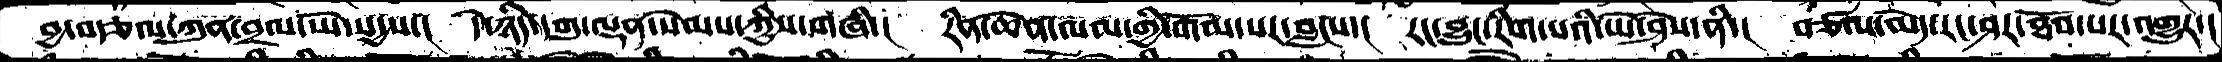བྱ་བརྩལ་ཀུན་བྲལ་ཡེ་སདྱས་།  དེ་ཉིད་དགུ་ལྡན་སེམས་ཀྱིས་གཞི་།  རིན་ཆེན་ལམ་གྱི་གོམ་པར་བླངས་།  རང་བྱུང་རིག་པའི་ཡེ་ཤེས་ནི་།  བཙལ་མེད་རང་ཤར་ཐོབ་པར་འགྱུར་།
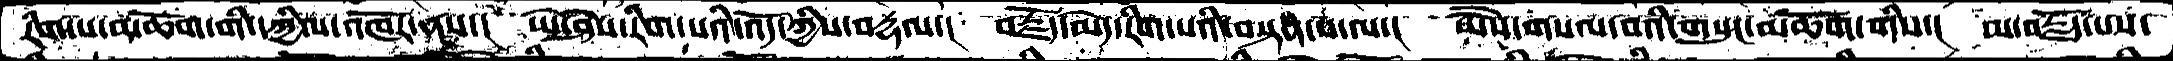རིག་པ་མཆོག་གི་དཀྱིལ་འཁོར་ནས་།  ཡེ་ཤེས་རིག་པའི་འོད་ཀྱིས་བརྡལ་།  བརྗོད་མེད་རིག་པའི་བསྟན་པ་ལ་།  ཡཻས་གསལ་བའི་གསུང་མཆོག་གིས་།  མ་བརྗོད་པས་
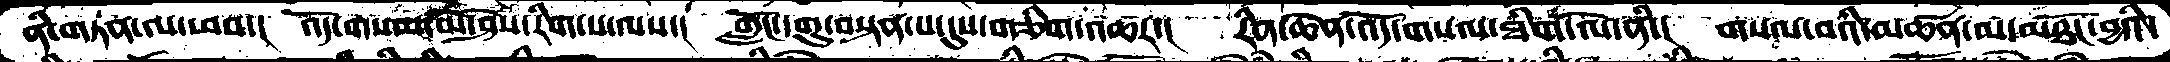ནི་གཏན་ལ་ཕབ་།  འོད་གསལ་ཡེ་ཤེས་རིག་པ་ལས་།  གློང་དགུ་བསྟན་པ་དུས་གཅིག་འཆར་།  རིན་ཆེན་འོད་གསལ་ཐིག་ལེ་ནི་།  གསལ་བའི་མཚན་མ་མཐོང་བྱའི་
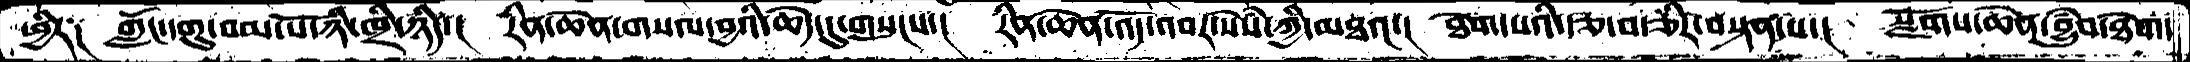ཕྱིར༑  གློང་དགུ་བམ་པོ་ཉི་ཁྲི་ཉིད་།  རིན་ཆེན་གསལ་བྱའི་ཆེད་དུ་གསུངས་།  རིན་ཆེན་འོད་འབར་སེཾས་ཀྱི་མཐའ་།  ཐེག་པའི་རྩ་བ་ཅིར་བསྟན་པ་།  སྫོགས་ཆེན་བྱུཾབ་ཐེག་
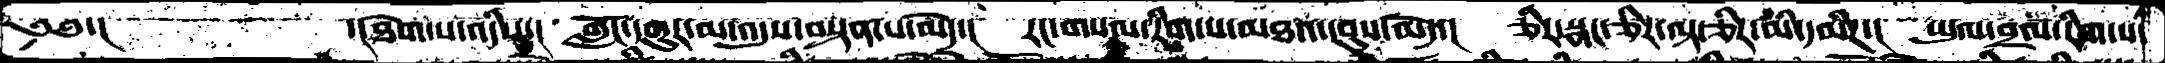༄༅་།          ་།ཐེག་པ་འདིར་།   གློང་དགུར་མ་འདུས་བསྟན་པ་མེད་།  རང་གསལ་རིག་པ་མཐའ་དབུས་མེད་།  ཅིར་སྣང་ཅིར་ལྟ་ཅིར་མི་དམིཌ་།  ཡུལ་བྲལ་རིག་པ་
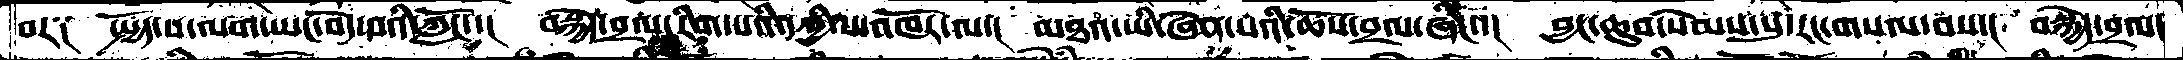བར༑   སྤྱོད་པ་ལག་ཡང་བདེ་བའི་ཀློང་་།   བསྐྱེད་བྲལ་རིག་པའི་དཀྱིལ་འཁོར་ལ་།  མཐའ་ཡི་ཞེན་པའི་ཆོས་བྲལ་ཞིང་་།  བྱང་ཆུབ་སེམས་སུ་རང་གསལ་བས་།  བསྐྱེད་བྲལ་
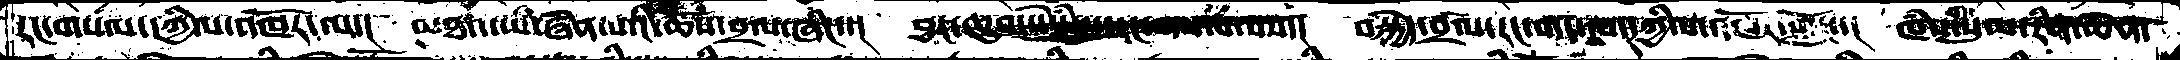རང་གསལ་དཀྱིལ་འཁོར་ལ་།  མཐའ་ཡི་ཞེན་པའི་ཆོས་བྲལ་ཞིང་་།  བྱང་ཆུབ་སེཾས་སུ་སྣང་གསལ་པས་།   བསྐྱེད་བྲལ་རང་གང་དབང་དཀྱིལ་འཁོར་གློང་་།  ཁཾས་གསུམ་རིན་ཆེན་
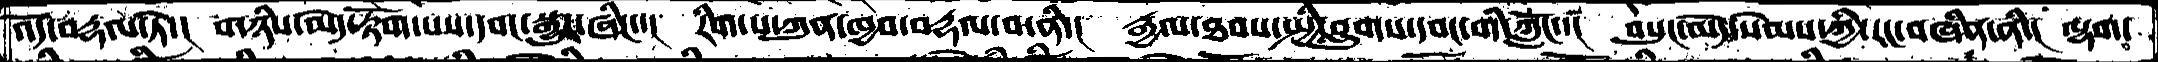འདོ་བརྡལ་ཏེ་།  གཉིས་མེད་རྟོག་པས་དབང་སྒྱུར་ཞིང་་།  རིག་པ་ཀུན་ཁྱབ་བརྡལ་བ་ནི་།  རྒྱལ་ཐབས་སྤྱི་བླུགས་དབང་གི་ཀློང་་།  བསུང་མེད་སེམས་ཀྱི་རང་བཞིན་ནི་།  ལྷག་
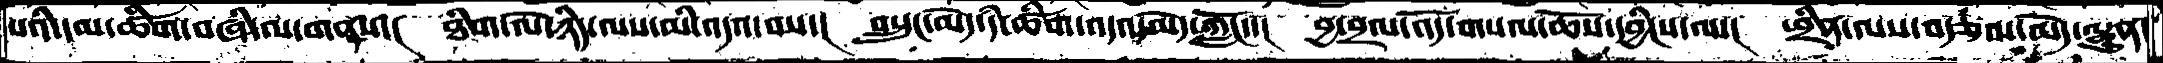པའི་དམ་ཚིག་བཞི་ལ་་གནས་།  ཐིག་ལེ་ཉིད་ལས་མི་འདའ་བས་།  བསྲུང་མེད་དཾ་ཚིག་འདའ་མེད་ཀློང་་།  བྱ་བྲལ་འོད་གསལ་ཆོས་དབྱིངས་ལ་།  ཕྲིན་ལས་བརྩལ་མེད་ལྷུན་
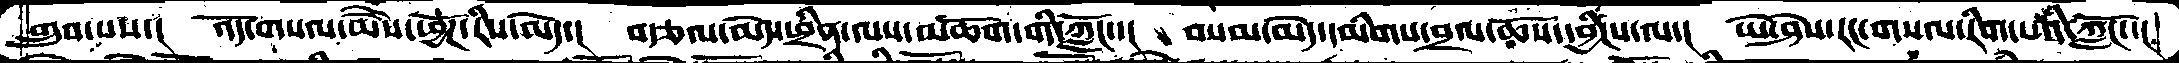གྲུབ་པས་།  འདོ་གསལ་ཡཻས་ཕྱོཌ་རིས་མེད་།  བརྩལ་མེད་ཕྲིན་ལས་མཆོག་གི་ཀློང་་།  བསམ་མེད་དམིགས་བྲལ་ཆོས་དབྱིངས་ལ་།  ཡེ་ཤེས་རང་གསལ་རིག་པའི་ཀློང་་།
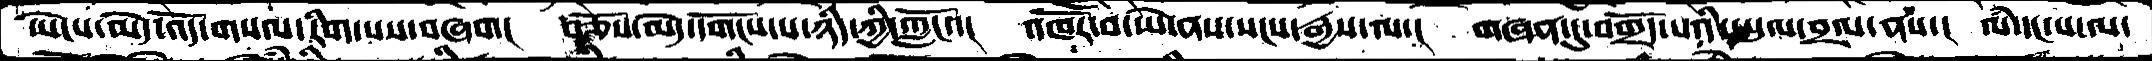ཡེངས་མེད་འདོ་གསལ་རིག་པས་བཞག།  བཅོས་མེད་དགོངས་པ་ཉིད་ཀྱི་ཀློང་་།  འཁོར་བ་ཡེ་ནས་སངས་་རྒྱས་ལ་།  གཞན་དུ་བགྲོད་པའི་ཡུལ་བྲལ་ནས་།  ལཾ་དང་ས་ལ་
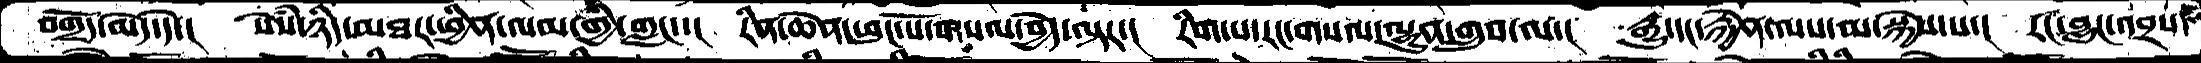བགྲོད་མེད་དེ་།  སེཾས་ཉིད་མཐར་ཕྱིན་ལམ་གྱི་གླང་་།  རིན་ཆེན་ཕུང་པོ་གསལ་བྱེད་ལྟར་།  རིག་པ་རང་གསལ་ལྷུན་གྲུབ་ལ་།  རྒྱུ་དང་རྐྱེན་ལས་མ་སྐྱེས་པ་།  རང་བྱུང་འབྲས་
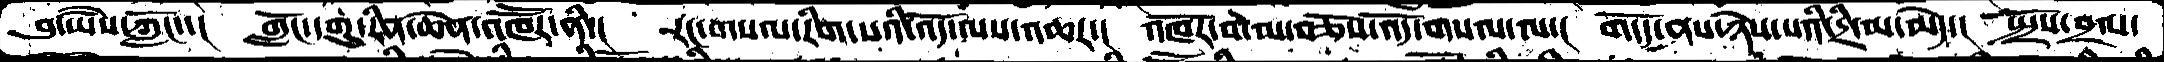བུ་ཡཻས་ཀློང་་།  གློང་དགུ་རིན་ཆེན་འཁཽར་ནི་།  རང་གསལ་རིག་པའི་འོད་ལས་འཆར་།  འཁོར་བ་མ་བཅོས་འོད་གསལ་ལ་།  གདོད་ནས་ཉེས་པའི་དྲི་མ་མེད་།  སྤྲོས་བྲལ་
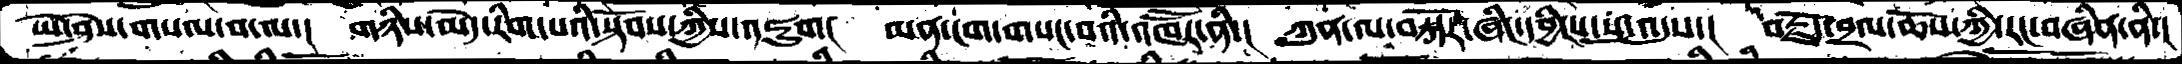ཡེ་ཤེས་གསལ་བ་ལ་།  གཉིས་མེད་རིག་པའི་སྟོབས་ཀྱིས་འཇུག།  མན་ངག་གསང་བའི་འཁཽར་ནི་།  ཀུན་ལ་བསྐོར་ཞིང་དབྱིངས་སུ་འདུས་།  བརྗོད་བྲལ་ཆོས་ཀྱི་རང་བཞིན་ནི་།
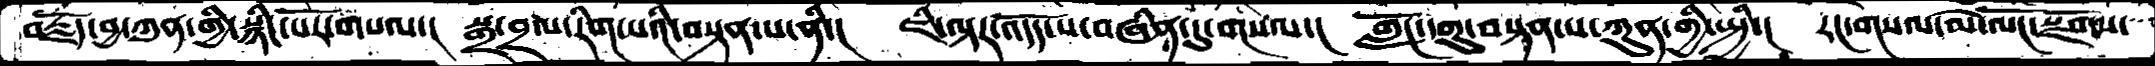བརྗོད་བྱ་ཀུན་གྱི་སྙིང་པོར་གསལ་།  སྒྲ་བྲལ་རིག་པའི་བསྟན་པ་ནི་།  ཇི་ལྟར་འདོད་པ་བཞིན་དུ་གསལ་།  གློང་དགུ་བསྟན་པ་ཀུན་གྱི་སྤྱི་།  རང་གསལ་མེ་ལོང་སྫོགས་
